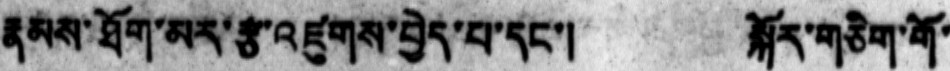རྣམས་ཐོག་མར་རྩ་འཛུགས་བྱེད་པ་དང་།   སྐོར་གཅིག་གོ་
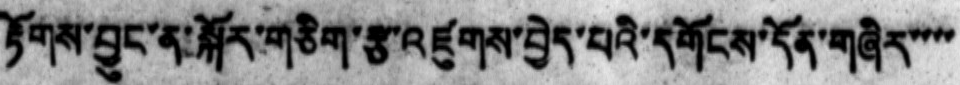རྟོགས་བྱུང་ན་སྐོར་གཅིག་རྩ་འཛུགས་བྱེད་པའི་དགོངས་དོན་གཞིར་་་་
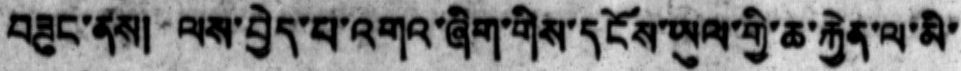བཟུང་ནས།  ལས་བྱེད་པ་འགའ་ཞིག་གིས་དངོས་ཡུལ་གྱི་ཆ་རྐྱེན་ལ་མི་
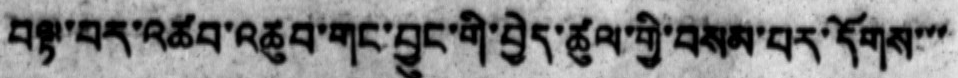བལྟ་པར་འཚབ་འཆུབ་གང་བྱུང་གི་བྱེད་ཚུལ་གྱི་བསམ་པར་དོགས་་་
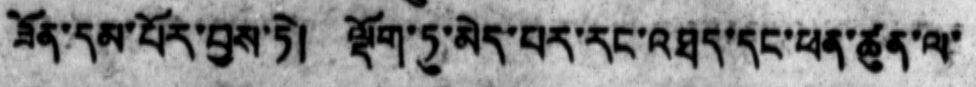ཟོན་དམ་པོར་བྱས་ཏེ། ལྡོག་ཏུ་མེད་པར་རང་འཐད་དང་ཕན་ཚུན་ལ་
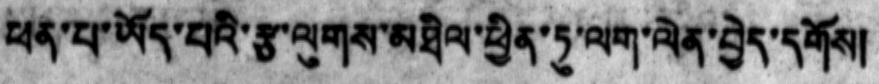ཕན་པ་ཡོད་པའི་རྩ་ལུགས་མཐིལ་ཕྱིན་ཏུ་ལག་ལེན་བྱེད་དགོས།
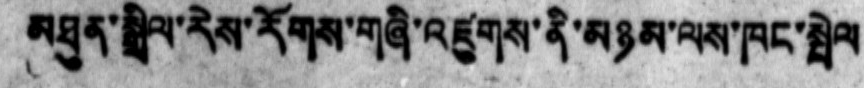མཐུན་སྒྲིལ་རེས་རོགས་གཞི་འཛུགས་ནི་མཉམ་ལས་ཁང་སྤེལ
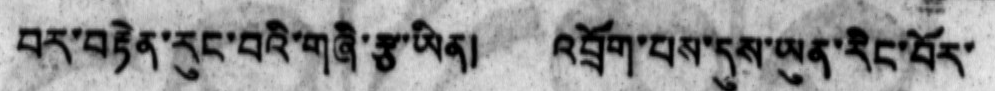བར་བརྟེན་རུང་བའི་གཞི་རྩ་ཡིན། འབྲོག་པས་དུས་ཡུན་རིང་བོར་
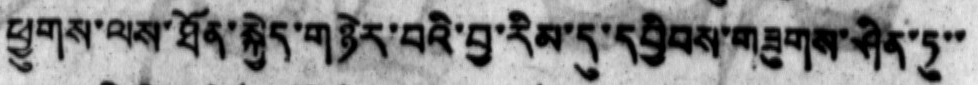ཕྱུགས་ལས་ཐོན་སྐྱེད་གཉེར་བའི་བྱ་རིམ་དུ་དབྱེབས་གཟུགས་ཤིན་ཏུ་་
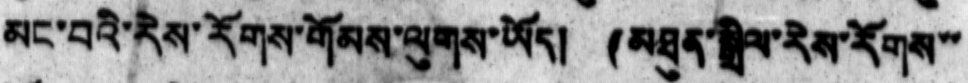མང་བའི་རེས་རོགས་གོམས་ལུགས་ཡོད། (མཐུན་སྒྲིལ་རེས་རོགས་་
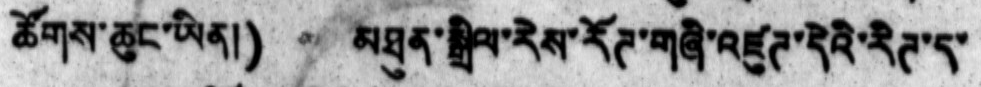ཚོགས་ཆུང་ཡིན།) མཐུན་སྒྲིལ་རེས་རོཊ་གཞི་འཛུཊ་དེའི་རིཊ་ད་
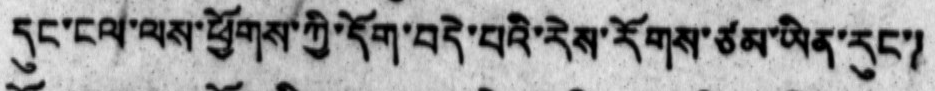དུང་ངལ་ལས་ཕྱོགས་ཀྱི་དོག་བདེ་པའི་རེས་རོགས་ཙམ་ཡིན་རུང་།
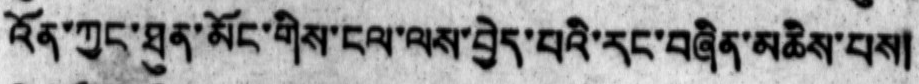འོན་ཀྱང་ཐུན་མོང་གིས་ངལ་ལས་བྱེད་པའི་རང་བཞིན་མཆིས་པས།
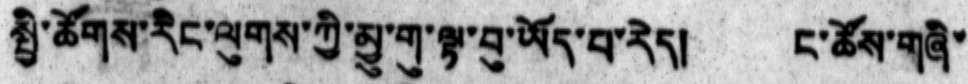སྤྱི་ཚོགས་རིང་ལུགས་ཀྱི་མྱུ་གུ་ལྟ་བུ་ཡོད་པ་རེད། ང་ཚོས་གཞི་
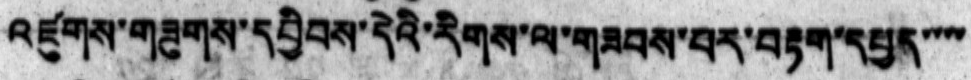འཛུགས་གཟུགས་དབྱིབས་དེའི་རིགས་ལ་གཟབས་པར་བརྟག་དཔྱད་་་་
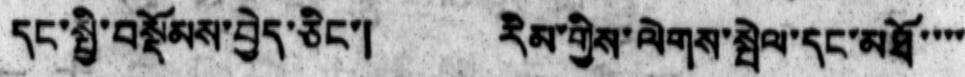དང་སྤྱི་བསྡོམས་བྱེད་ཅིང་། རིམ་གྱིས་ལེགས་སྤེལ་དང་མཐོ་་་་
